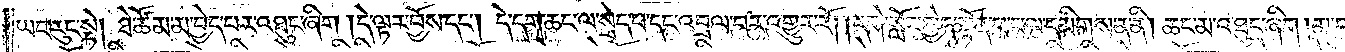ཡང་རུང་སྟེ། ཐེ་ཚོམ་མ་བྱེད་པར་འཐུང་ཞིག །དེ་ལྟར་བྱོས་དང༌། དེ་དག་ཆང་ལ་སྲེད་པ་དང་འབྲལ་བར་འགྱུར་རོ། །དགེ་སློང་ཁྱེད་སྟོན་པ་ང་ལ་དམིགས་ན་ནི། ཆང་མ་འཐུང་ཞིག །མ་བླུད་ཅིག།
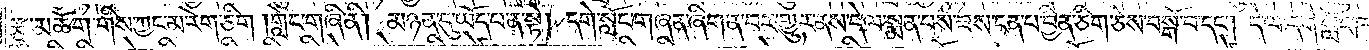རྩྭ་མཆོག་གིས་ཀྱང་མ་རེག་ཅིག །གླེང་གཞི་ནི། མཉན་དུ་ཡོད་པ་ན་སྟེ། དགེ་སློང་གཞན་ཞིག་ན་བར་གྱུར་ནས་དེ་ལ་སྨན་པས་ཟས་ངན་པ་བྱིན་ཅིག་ཅེས་བསྒོ་བ་དང༌། དེ་ལ་དགེ་སློང་ཁ་
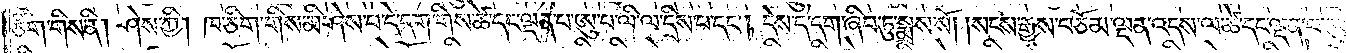ཅིག་གིས་ནི། ཤེས་ཀྱི། ཁ་ཅིག་གིས་མི་ཤེས་པ་དེ་དག་གིས་ཚེ་དང་ལྡན་པ་ཨུ་པ་ལི་ལ་དྲིས་པ་དང༌། དེས་དེ་དག་ཞིབ་ཏུ་སྨྲས་སོ། །སངས་རྒྱས་བཅོམ་ལྡན་འདས་ལ་ཚེ་དང་ལྡན་པ་ཨུ་པ་
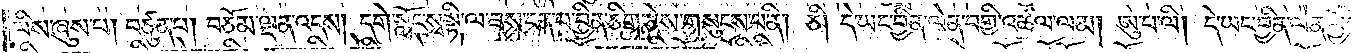ལིས་ཞུས་པ། བཙུན་པ། བཅོམ་ལྡན་འདས། དགེ་སློང་སྭ་སྟི་ལ་ཟས་ངན་པ་བྱིན་ཅིག་ཅེས་གསུངས་པ་ནི། ཅི། དེ་ཡང་བྱིན་ལེན་བགྱི་འཚལ་ལམ། ཨུ་པ་ལི། དེ་ཡང་བྱིན་ལེན་བྱོས་
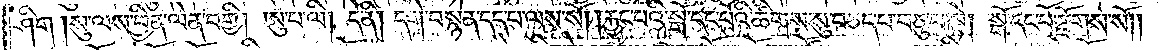ཤིག །སུ་ལས་བྱིན་ལེན་བགྱི། ཨུ་པ་ལི། དེ་ནི། དགེ་བསྙེན་དད་པ་ལས་སོ། །རྐྱང་པའི་སྒོ་དང་པོའི་ཚིགས་སུ་བཅད་པ་བཅུ་པ་སྟེ། སྒོ་དང་པོ་རྫོགས་སོ༎
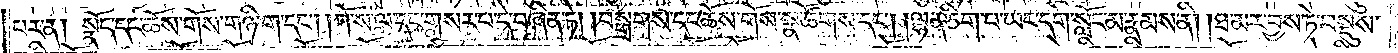པར་ན། སྣོད་དང་ཆོས་གོས་གཉི་ག་དང༌། །ཀོ་ས་ལ་དང་གསར་པ་དེ་བཞིན་ཏེ། །བསྒྲགས་དང་ཆོས་གོས་སྣ་ཚོགས་དང༌། །ལྷན་ཅིག་པ་ཡང་དགེ་སློང་མ་རྣམས་ནི། །ཐ་མར་བྱས་ཏེ་བསྡུས་
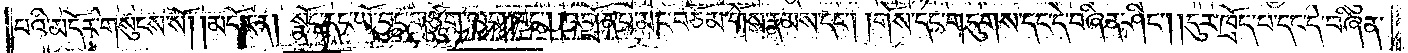པའི་མདོར་གསུངས་སོ། །མདོར་ན། སྣོད་དང་ཡོ་བྱད་གཙུག་ལག་ཁང༌། །འགྲོན་པ་མང་བཅོམ་གོས་རྣམས་དང༌། །གོས་དང་གདུགས་དང་དེ་བཞིན་ཤིང༌། །དུར་ཁྲོད་པ་དང་དེ་བཞིན་
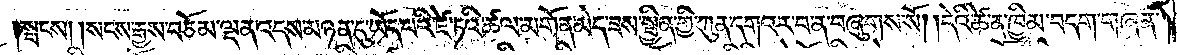སྤངས། །སངས་རྒྱས་བཅོམ་ལྡན་འདས་མཉན་དུ་ཡོད་པའི་ཛེ་ཏའི་ཚལ་མགོན་མེད་ཟས་སྦྱིན་གྱི་ཀུན་དགའ་ར་བ་ན་བཞུགས་སོ། །དེའི་ཚེ་ན་ཁྱིམ་བདག་གཞན་
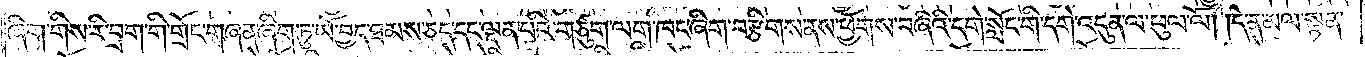ཞིག་གིས་རི་བྲག་གི་གྲོང་གཞན་ཞིག་ཏུ་ཡོ་བྱད་ཐམས་ཅད་དང་ལྡན་པའི་གཙུག་ལག་ཁང་ཞིག་བརྩིགས་ནས་ཕྱོགས་བཞིའི་དགེ་སློང་གི་དགེ་འདུན་ལ་ཕུལ་ལོ། །དེ་ན་མལ་སྟན་
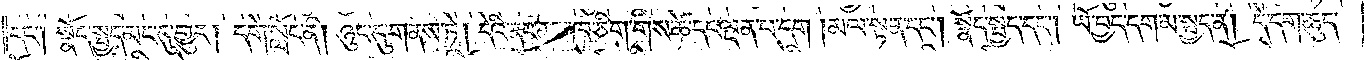དང༌། སྣོད་སྤྱད་མང་དུ་གྱུར། དགེ་སློང་ནི། ཉུང་དུ་གནས་ཏེ། དེའི་ནང་ནས་ཁ་ཅིག་གིས་ཚེ་དང་ལྡན་པ་དག །མལ་སྟན་དང༌། སྣོད་སྤྱད་དང༌། ཡོ་བྱད་དག་མ་སྤྱད་ན། དེ་དག་ཆུད་
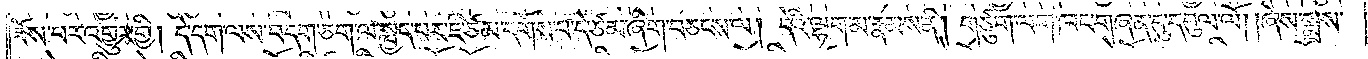ཟོས་པར་འགྱུར་གྱི། དེ་དག་ལས་བདག་ཅག་ལ་སྤྱད་པར་ཇི་ཙམ་དགོས་པ་དེ་ཙམ་ཞིག་བཅངས་ལ། དེའི་ལྷག་མ་རྣམས་ནི། གཙུག་ལག་ཁང་གཞན་དུ་དབུལ་ལོ། །ཞེས་སྨྲས་
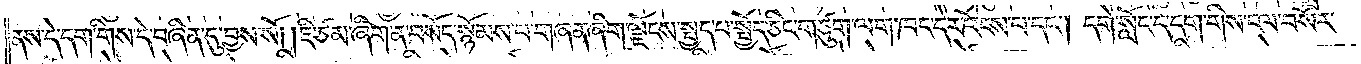ནས་དེ་དག་གིས་དེ་བཞིན་དུ་བྱས་སོ། །ཇི་ཙམ་ཞིག་ན་བསོད་སྙོམས་པ་གཞན་ཞིག་ལྗོངས་སྤྱད་པ་སྤྱོད་ཅིང་གཙུག་ལག་ཁང་དེར་འོངས་པ་དང༌། དགེ་སློང་དེ་དག་གིས་ངལ་བསོར་
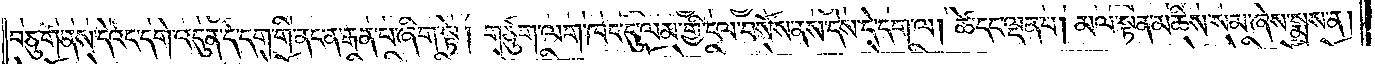བཅུག་ནས་དེའང་དགེ་འདུན་དེ་དག་གི་ནང་ན་རྒན་པ་ཞིག་སྟེ། གཙུག་ལག་ཁང་དུ་ལམ་གྱི་ངལ་བསོས་ནས་དེས་དེ་དག་ལ། ཚེ་དང་ལྡན་པ། མལ་སྟན་མཆིས་སམ་ཞེས་སྨྲས་ན།
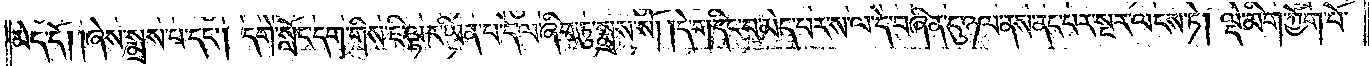མེད་དོ། །ཞེས་སྨྲས་པ་དང༌། དགེ་སློང་དག་གིས་ཇི་ལྟར་ཡིན་པ་དེ་ལ་ཞིབ་ཏུ་སྨྲས་སོ། །དེ་གདིང་བ་མེད་པར་ས་ལ་དེ་བཞིན་དུ་ཉལ་ནས་ནང་པར་སྔར་ལངས་ཏེ། ལྡེ་མིག་ཀྱོག་པོ་
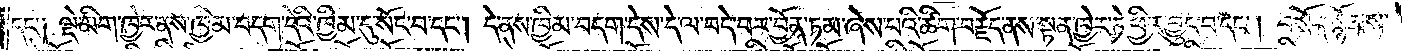དང་༑ ལྡེ་མིག་ཁྱེར་ནས་ཁྱིམ་བདག་དེའི་ཁྱིམ་དུ་སོང་བ་དང༌། དེ་ནས་ཁྱིམ་བདག་དེས་དེ་ལ་བདེ་བར་བྱོན་ཏམ་ཞེས་པའི་ཚིག་བརྗོད་ནས་སྟན་ཁྱེར་ཏེ་ཕྱིར་བྱུང་བ་དང༌། བསོད་སྙོམས་
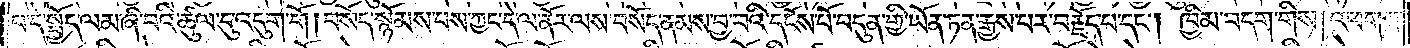པ་དེ་སྤྱོད་ལམ་ཞི་བའི་ཚུལ་དུ་འདུག་གོ །བསོད་སྙོམས་པས་ཀྱང་དེ་ལ་ནོར་ལས་བསོད་ནམས་བྱ་བའི་དངོས་པོ་བདུན་གྱི་ཡོན་ཏན་རྒྱས་པར་བརྗོད་པ་དང༌། ཁྱིམ་བདག་གིས། འཕགས་
